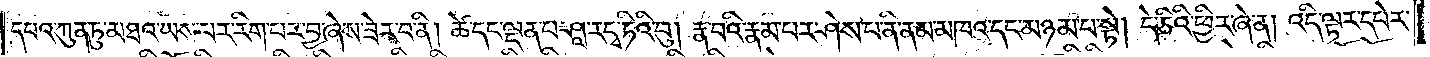དཔའ་ཀུན་ཏུ་མཐའ་ཡས་པར་རིག་པར་བྱ་ཞེས་ཟེར་བ་ནི། ཚེ་དང་ལྡན་པ་ཤཱ་ར་དྭ་ཏིའི་བུ། རྣ་བའི་རྣམ་པར་ཤེས་པ་ནི་ནམ་མཁའ་དང་མཉམ་པ་སྟེ། དེ་ཅིའི་ཕྱིར་ཞེ་ན། འདི་ལྟར་དཔེར་
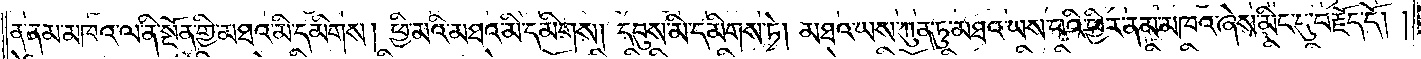ན་ནམ་མཁའ་ལ་ནི་སྔོན་གྱི་མཐའ་མི་དམིགས། ཕྱི་མའི་མཐའ་མི་དམིགས། དབུས་མི་དམིགས་ཏེ། མཐའ་ཡས་ཀུན་ཏུ་མཐའ་ཡས་པའི་ཕྱིར་ནམ་མཁའ་ཞེས་མིང་དུ་བརྗོད་དོ།
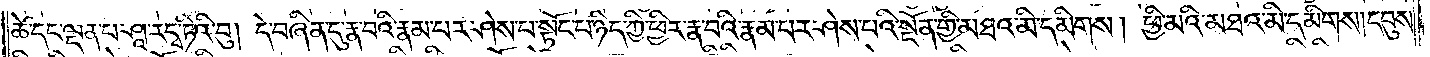ཚེ་དང་ལྡན་པ་ཤཱ་ར་དྭ་ཏིའི་བུ། དེ་བཞིན་དུ་རྣ་བའི་རྣམ་པར་ཤེས་པ་སྟོང་པ་ཉིད་ཀྱི་ཕྱིར་རྣ་བའི་རྣམ་པར་ཤེས་པའི་སྔོན་གྱི་མཐའ་མི་དམིགས། ཕྱི་མའི་མཐའ་མི་དམིགས། དབུས་
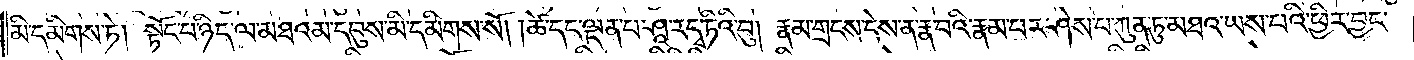མི་དམིགས་ཏེ། སྟོང་པ་ཉིད་ལ་མཐའམ་དབུས་མི་དམིགས་སོ། །ཚེ་དང་ལྡན་པ་ཤཱ་ར་དྭ་ཏིའི་བུ། རྣམ་གྲངས་དེས་ན་རྣ་བའི་རྣམ་པར་ཤེས་པ་ཀུན་ཏུ་མཐའ་ཡས་པའི་ཕྱིར་བྱང་
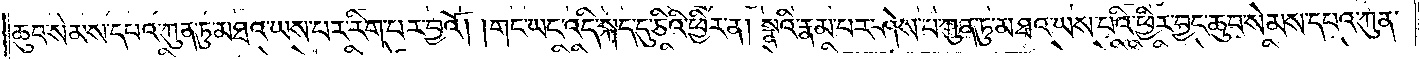ཆུབ་སེམས་དཔའ་ཀུན་ཏུ་མཐའ་ཡས་པར་རིག་པར་བྱའོ། །གང་ཡང་འདི་སྐད་དུ་ཅིའི་ཕྱིར་ན། སྣའི་རྣམ་པར་ཤེས་པ་ཀུན་ཏུ་མཐའ་ཡས་པའི་ཕྱིར་བྱང་ཆུབ་སེམས་དཔའ་ཀུན་
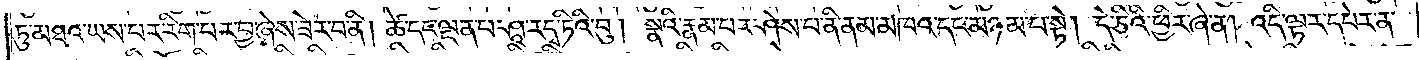ཏུ་མཐའ་ཡས་པར་རིག་པར་བྱ་ཞེས་ཟེར་བ་ནི། ཚེ་དང་ལྡན་པ་ཤཱ་ར་དྭ་ཏིའི་བུ། སྣའི་རྣམ་པར་ཤེས་པ་ནི་ནམ་མཁའ་དང་མཉམ་པ་སྟེ། དེ་ཅིའི་ཕྱིར་ཞེ་ན། འདི་ལྟར་དཔེར་ན་
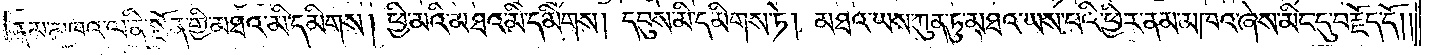ནམ་མཁའ་ལ་ནི་སྔོན་གྱི་མཐའ་མི་དམིགས། ཕྱི་མའི་མཐའ་མི་དམིགས། དབུས་མི་དམིགས་ཏེ། མཐའ་ཡས་ཀུན་ཏུ་མཐའ་ཡས་པའི་ཕྱིར་ནམ་མཁའ་ཞེས་མིང་དུ་བརྗོད་དོ། །
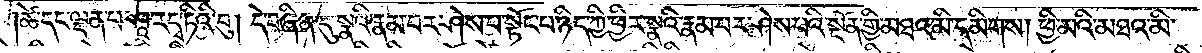ཚེ་དང་ལྡན་པ་ཤཱ་ར་དྭ་ཏིའི་བུ། དེ་བཞིན་དུ་སྣའི་རྣམ་པར་ཤེས་པ་སྟོང་པ་ཉིད་ཀྱི་ཕྱིར་སྣའི་རྣམ་པར་ཤེས་པའི་སྔོན་གྱི་མཐའ་མི་དམིགས། ཕྱི་མའི་མཐའ་མི་
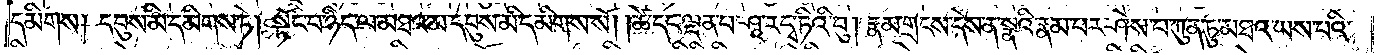དམིགས། དབུས་མི་དམིགས་ཏེ། སྟོང་པ་ཉིད་ལ་མཐའམ་དབུས་མི་དམིགས་སོ། །ཚེ་དང་ལྡན་པ་ཤཱ་ར་དྭ་ཏིའི་བུ། རྣམ་གྲངས་དེས་ན་སྣའི་རྣམ་པར་ཤེས་པ་ཀུན་ཏུ་མཐའ་ཡས་པའི་
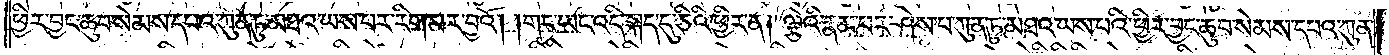ཕྱིར་བྱང་ཆུབ་སེམས་དཔའ་ཀུན་ཏུ་མཐའ་ཡས་པར་རིག་པར་བྱའོ། །གང་ཡང་འདི་སྐད་དུ་ཅིའི་ཕྱིར་ན། ལྕེའི་རྣམ་པར་ཤེས་པ་ཀུན་ཏུ་མཐའ་ཡས་པའི་ཕྱིར་བྱང་ཆུབ་སེམས་དཔའ་ཀུན་
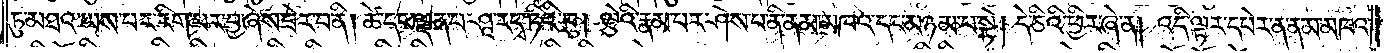ཏུ་མཐའ་ཡས་པར་རིག་པར་བྱ་ཞེས་ཟེར་བ་ནི། ཚེ་དང་ལྡན་པ་ཤཱ་ར་དྭ་ཏིའི་བུ། ལྕེའི་རྣམ་པར་ཤེས་པ་ནི་ནམ་མཁའ་དང་མཉམ་པ་སྟེ། དེ་ཅིའི་ཕྱིར་ཞེ་ན། འདི་ལྟར་དཔེར་ན་ནམ་མཁའ་
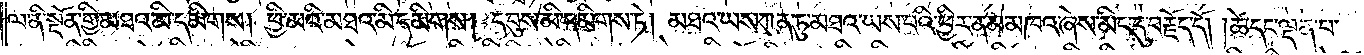ལ་ནི་སྔོན་གྱི་མཐའ་མི་དམིགས། ཕྱི་མའི་མཐའ་མི་དམིགས། དབུས་མི་དམིགས་ཏེ། མཐའ་ཡས་ཀུན་ཏུ་མཐའ་ཡས་པའི་ཕྱིར་ནམ་མཁའ་ཞེས་མིང་དུ་བརྗོད་དོ། །ཚེ་དང་ལྡན་པ་
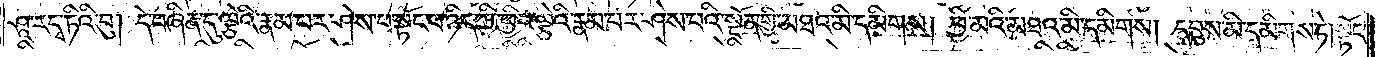ཤཱ་ར་དྭ་ཏིའི་བུ། དེ་བཞིན་དུ་ལྕེའི་རྣམ་པར་ཤེས་པ་སྟོང་པ་ཉིད་ཀྱི་ཕྱིར་ལྕེའི་རྣམ་པར་ཤེས་པའི་སྔོན་གྱི་མཐའ་མི་དམིགས། ཕྱི་མའི་མཐའ་མི་དམིགས། དབུས་མི་དམིགས་ཏེ། སྟོང་
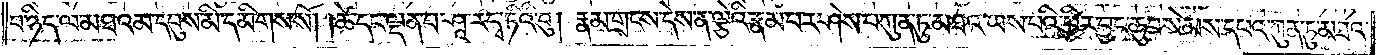པ་ཉིད་ལ་མཐའམ་དབུས་མི་དམིགས་སོ། །ཚེ་དང་ལྡན་པ་ཤཱ་ར་དྭ་ཏིའི་བུ། རྣམ་གྲངས་དེས་ན་ལྕེའི་རྣམ་པར་ཤེས་པ་ཀུན་ཏུ་མཐའ་ཡས་པའི་ཕྱིར་བྱང་ཆུབ་སེམས་དཔའ་ཀུན་ཏུ་མཐའ་
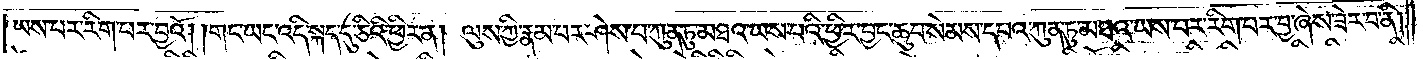ཡས་པར་རིག་པར་བྱའོ། །གང་ཡང་འདི་སྐད་དུ་ཅིའི་ཕྱིར་ན། ལུས་ཀྱི་རྣམ་པར་ཤེས་པ་ཀུན་ཏུ་མཐའ་ཡས་པའི་ཕྱིར་བྱང་ཆུབ་སེམས་དཔའ་ཀུན་ཏུ་མཐའ་ཡས་པར་རིག་པར་བྱ་ཞེས་ཟེར་བ་ནི།
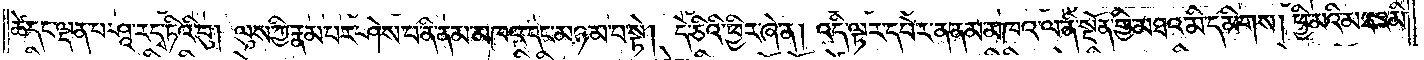ཚེ་དང་ལྡན་པ་ཤཱ་ར་དྭ་ཏིའི་བུ། ལུས་ཀྱི་རྣམ་པར་ཤེས་པ་ནི་ནམ་མཁའ་དང་མཉམ་པ་སྟེ། དེ་ཅིའི་ཕྱིར་ཞེ་ན། འདི་ལྟར་དཔེར་ན་ནམ་མཁའ་ལ་ནི་སྔོན་གྱི་མཐའ་མི་དམིགས། ཕྱི་མའི་མཐའ་མི་
